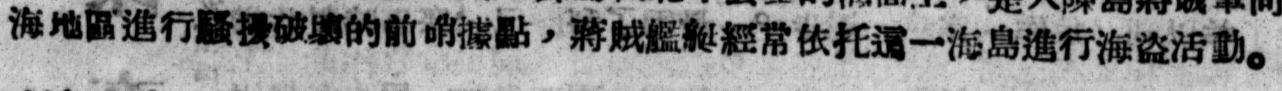海地區進行騷擾破壞的前哨據點，蔣賊艦艇經常依托這一海島進行海盜活動。
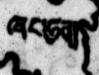ཞང་ཧྲན།
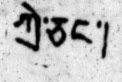ཀྲེ་ཅང་།
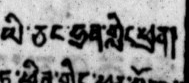ཡི་ཅང་ཧྲན་གླིང་ཕྲན།
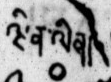ཝིན་ལིན།
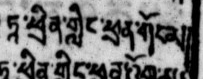ཏཱ་ཕྲིན་གླིང་ཕྲན་གོང་མ།
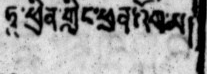ཏཱ་ཕྲིན་གླིང་ཕྲན་འོག་མ།
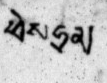ཕེས་ཧྲན།
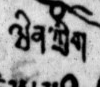ཝིན་ཀྲིག
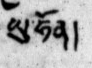ཡུ་ཧོན།
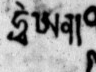ཧྥུ་ཨན།
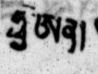ཧྥེ་ཨན།
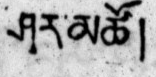ཤར་མཚོ།
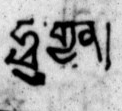ཧྥུ་གྱན།
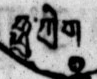ཧྥུ་ཀྲིག་
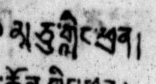མཱ་ཅུ་གླིང་ཕྲན།
